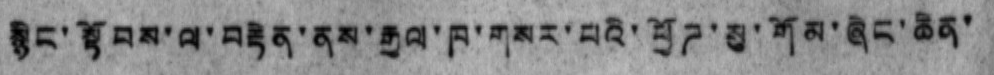སྙིང་སྟོབས་ལ་བརྟེན་ནས་རྒྱལ་ཁ་གསར་པའི་ཕྱོཌ་སུ་གོམ་ཞིང་ཆེན་
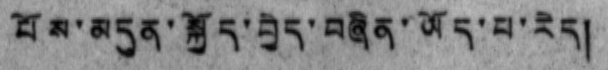པོས་མདུན་སྐྱོད་བྱེད་བཞིན་ཡོད་པ་རེད།
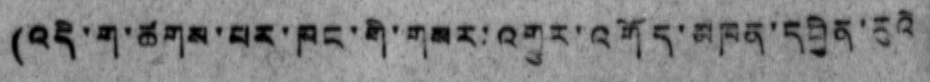(འདི་ག་ཚགས་པར་ཁང་གི་གསར་འགྱུར་འགོད་མཁན་དབྱིན་རུའི
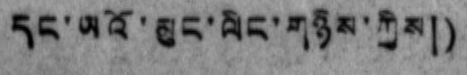དང་ཡའོ་ཆུང་མུང་གཉིས་ཀྱིས།)
